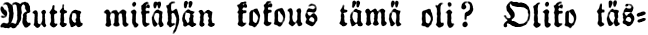Mutta mikähän kokous tämä oli? Oliko täs-
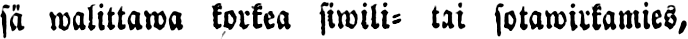sä walittawa korkea siwili- tai sotawirkamies,
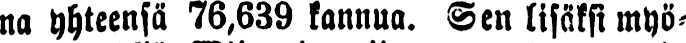na yhteensä 76,639 kannua. Sen lisäksi myö-
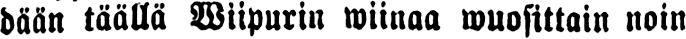dään täällä Wiipurin wiinaa wuosittain noin
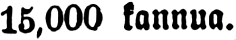15,000 kannua.
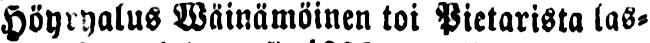Höyryalus Wäinämöinen toi Pietarista las-
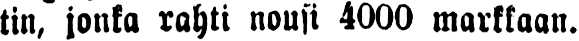tin, jonka rahti nousi 4000 markkaan.
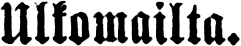Ulkomailta.
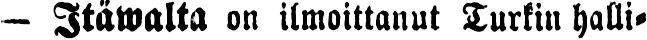— Itäwältä on ilmoittanut Turkin halli-
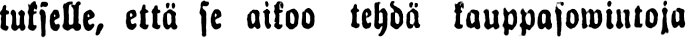tukselle, että se aikoo tehdä kauppasowintoja
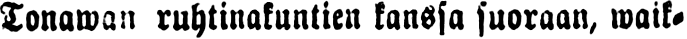Tonawan ruhtinakuntien kanssa suoraan, waik-
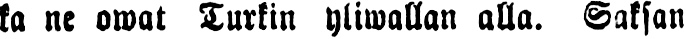ka ne owat Turkin yliwallan alla. Saksan
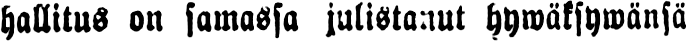hallitus on samassa julistanut hywäksywänsä
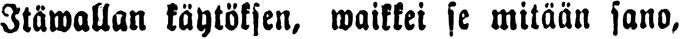Itäwallan käytöksen, waikkei se mitään sano,
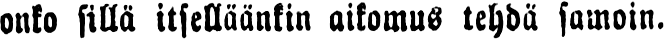onko sillä itselläänkin aikomus tehdä samoin.
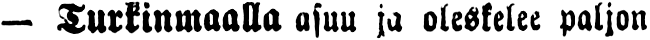— Turkinmaalla asuu ja oleskelee paljon
